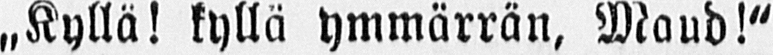«Kyllä! kyllä ymmärrän, Maud!"
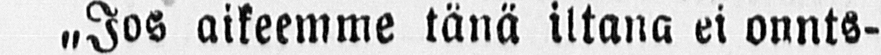˶Jos aikeemme tänä iltana ei onnts-
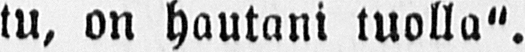tu, on hautani tuolla".
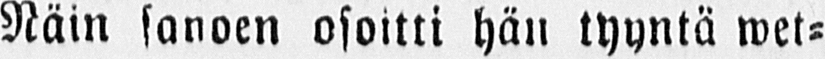Näin sanoen osoitti hän tyyntä wet-
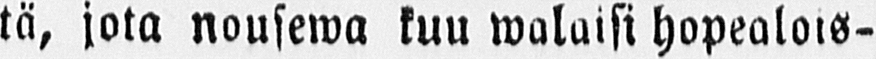tä, jota nousewa kuu walaisi hopealois-
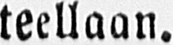teellaan.
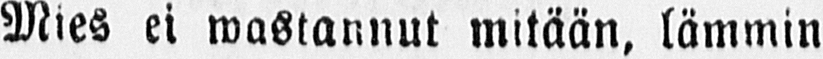Mies ei wastannut mitään, lämmin
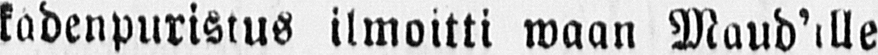kadenpuristus ilmoitti waan Maud'ille
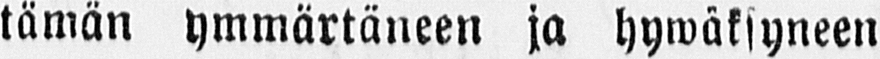tämän ymmärtäneen ja hywäksyneen
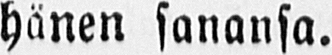hänen sanansa.
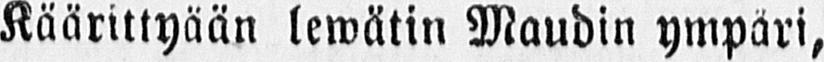Käärittyään lewätin Maudin ympäri,
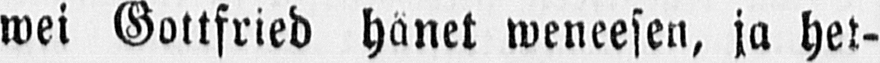wei Gottfried hänet weneesen, ja het-
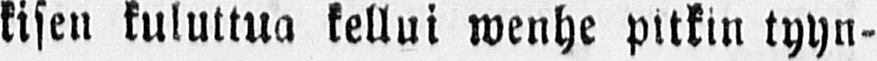kisen kuluttua kellui wenhe pitkin tyyn-
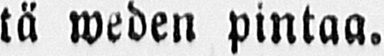tä weden pintaa.
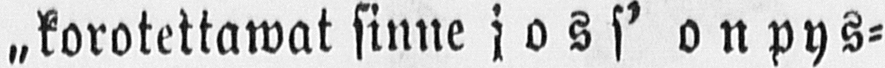˶korotettawat sinne j oss' on pys-
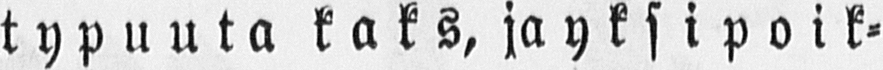typuuta kaks, ja yksi poik-
